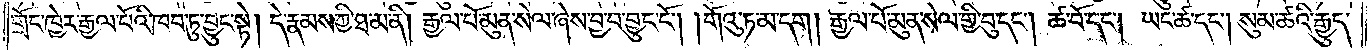གྲོང་ཁྱེར་རྒྱལ་པོའི་ཁབ་ཏུ་བྱུང་སྟེ། དེ་རྣམས་ཀྱི་ཐ་མ་ནི། རྒྱལ་པོ་མུན་སེལ་ཞེས་བྱ་བ་བྱུང་ངོ༌། །གོའུ་ཏ་མ་དག །རྒྱལ་པོ་མུན་སེལ་གྱི་བུ་དང༌། ཚ་བོ་དང༌། ཡང་ཚ་དང༌། སུམ་ཚའི་རྒྱུད་
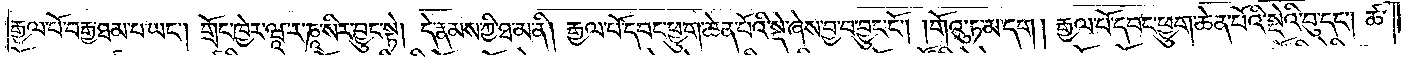རྒྱལ་པོ་བརྒྱ་ཐམ་པ་ཡང༌། གྲོང་ཁྱེར་ཝཱ་ར་ཎཱ་སིར་བྱུང་སྟེ། དེ་རྣམས་ཀྱི་ཐ་མ་ནི། རྒྱལ་པོ་དབང་ཕྱུག་ཆེན་པོའི་སྡེ་ཞེས་བྱ་བ་བྱུང་ངོ༌། །གོའུ་ཏ་མ་དག །རྒྱལ་པོ་དབང་ཕྱུག་ཆེན་པོའི་སྡེའི་བུ་དང༌། ཚ་
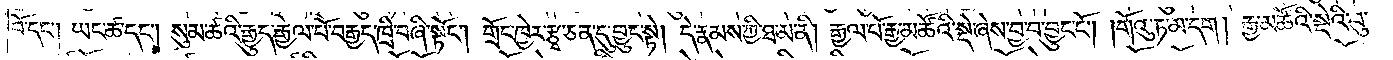བོ་དང༌། ཡང་ཚ་དང༌། སུམ་ཚའི་རྒྱུད་རྒྱལ་པོ་བརྒྱད་ཁྲི་བཞི་སྟོང༌། གྲོང་ཁྱེར་རྩྭ་ཅན་དུ་བྱུང་སྟེ། དེ་རྣམས་ཀྱི་ཐ་མ་ནི། རྒྱལ་པོ་རྒྱ་མཚོའི་སྡེ་ཞེས་བྱ་བ་བྱུང་ངོ༌། །གོའུ་ཏ་མ་དག །རྒྱ་མཚོའི་སྡེའི་བུ་
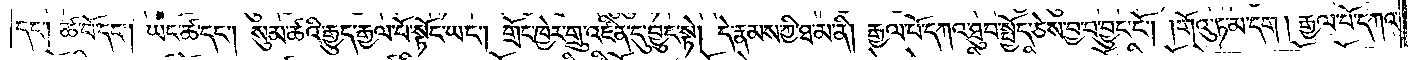དང༌། ཚ་བོ་དང༌། ཡང་ཚ་དང༌། སུམ་ཚའི་རྒྱུད་རྒྱལ་པོ་སྟོང་ཡང༌། གྲོང་ཁྱེར་གྲུ་འཛིན་དུ་བྱུང་སྟེ། དེ་རྣམས་ཀྱི་ཐ་མ་ནི། རྒྱལ་པོ་དཀའ་ཐུབ་སྤྱོད་ཅེས་བྱ་བ་བྱུང་ངོ༌། །གོའུ་ཏ་མ་དག །རྒྱལ་པོ་དཀའ་
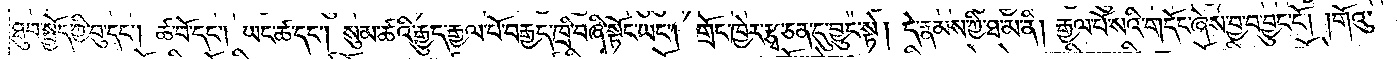ཐུབ་སྤྱོད་ཀྱི་བུ་དང༌། ཚ་བོ་དང༌། ཡང་ཚ་དང༌། སུམ་ཚའི་རྒྱུད་རྒྱལ་པོ་བརྒྱད་ཁྲི་བཞི་སྟོང་ཡང༌། གྲོང་ཁྱེར་རྩྭ་ཅན་དུ་བྱུང་སྟེ། དེ་རྣམས་ཀྱི་ཐ་མ་ནི། རྒྱལ་པོ་སའི་གདོང་ཞེས་བྱ་བ་བྱུང་ངོ༌། །གོའུ་
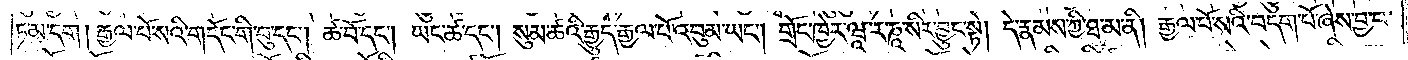ཏ་མ་དག །རྒྱལ་པོ་སའི་གདོང་གི་བུ་དང༌། ཚ་བོ་དང༌། ཡང་ཚ་དང༌། སུམ་ཚའི་རྒྱུད་རྒྱལ་པོ་འབུམ་ཡང༌། གྲོང་ཁྱེར་ཝཱ་ར་ཎཱ་སིར་བྱུང་སྟེ། དེ་རྣམས་ཀྱི་ཐ་མ་ནི། རྒྱལ་པོས་སའི་བདག་པོ་ཞེས་བྱ་བ་
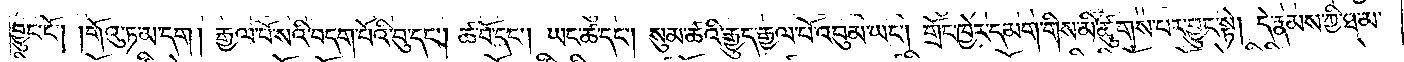བྱུང་ངོ༌། །གོའུ་ཏ་མ་དག །རྒྱལ་པོ་སའི་བདག་པོའི་བུ་དང༌། ཚ་བོ་དང༌། ཡང་ཚ་དང༌། སུམ་ཚའི་རྒྱུད་རྒྱལ་པོ་འབུམ་ཡང༌། གྲོང་ཁྱེར་དམག་གིས་མི་ཚུགས་པར་བྱུང་སྟེ། དེ་རྣམས་ཀྱི་ཐ་མ་
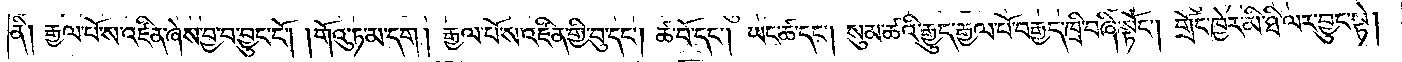ནི། རྒྱལ་པོ་ས་འཛིན་ཞེས་བྱ་བ་བྱུང་ངོ༌། །གོའུ་ཏ་མ་དག །རྒྱལ་པོ་ས་འཛིན་གྱི་བུ་དང༌། ཚ་བོ་དང༌། ཡང་ཚ་དང༌། སུམ་ཚའི་རྒྱུད་རྒྱལ་པོ་བརྒྱད་ཁྲི་བཞི་སྟོང༌། གྲོང་ཁྱེར་མི་ཐི་ལར་བྱུང་སྟེ།
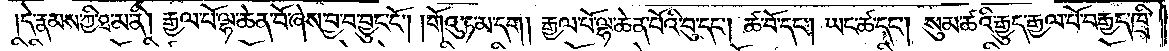དེ་རྣམས་ཀྱི་ཐ་མ་ནི། རྒྱལ་པོ་ལྷ་ཆེན་པོ་ཞེས་བྱ་བ་བྱུང་ངོ༌། །གོའུ་ཏ་མ་དག །རྒྱལ་པོ་ལྷ་ཆེན་པོའི་བུ་དང་།ཚ་བོ་དང༌། ཡང་ཚ་དང༌། སུམ་ཚའི་རྒྱུད་རྒྱལ་པོ་བརྒྱད་ཁྲི་
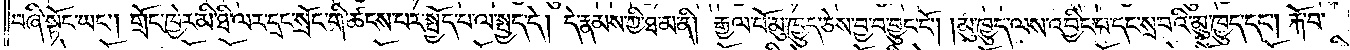བཞི་སྟོང་ཡང༌། གྲོང་ཁྱེར་མི་ཐི་ལར་དྲང་སྲོང་གི་ཚངས་པར་སྤྱོད་པ་ལ་སྤྱད་དེ། དེ་རྣམས་ཀྱི་ཐ་མ་ནི། རྒྱལ་པོ་མུ་ཁྱུད་ཅེས་བྱ་བ་བྱུང་ངོ༌། །མུ་ཁྱུད་ལས་འབྱིང་བ་དང་སྲ་བའི་མུ་ཁྱུད་དང༌། རྐོ་བ་
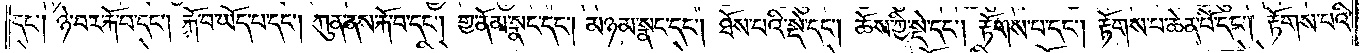དང༌། ཉེ་བར་རྐོ་བ་དང༌། རྐོ་བ་ཡོད་པ་དང༌། ཀུན་ནས་རྐོ་བ་དང༌། གྱ་ནོམ་སྣང་དང༌། མཉམ་སྣང་དང༌། ཐོས་པའི་སྡེ་དང་།ཆོས་ཀྱི་སྡེ་དང༌། རྟོགས་པ་དང༌། རྟོགས་པ་ཆེན་པོ་དང༌། རྟོགས་པའི་
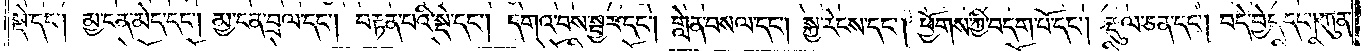སྡེ་དང༌། མྱ་ངན་མེད་དང༌། མྱ་ངན་བྲལ་དང༌། བརྟན་པའི་སྡེ་དང༌། དགའ་བས་སྦྱར་དང༌། གླེན་བསལ་དང༌། སྐྱ་རེངས་དང་།ཕྱོགས་ཀྱི་བདག་པོ་དང༌། རྡུལ་ཅན་དང༌། བདེ་བྱེད་དང༌། ཀུན་
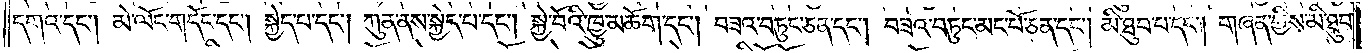དགའ་དང༌། མེ་ལོང་གདོང་དང༌། སྐྱེ་པ་དང༌། ཀུན་ནས་སྐྱེད་པ་དང༌། སྐྱེ་བོའི་ཁྱུ་མཆོག་དང༌། བཟའ་བཏུང་ཅན་དང༌། བཟའ་བཏུང་མང་པོ་ཅན་དང༌། མི་ཐུབ་པ་དང༌། གཞན་གྱིས་མི་ཐུབ་
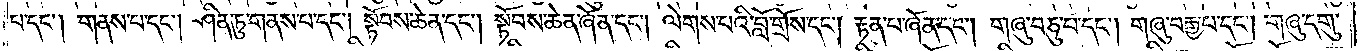པ་དང༌། གནས་པ་དང༌། ཤིན་ཏུ་གནས་པ་དང༌། སྟོབས་ཆེན་དང་།སྟོབས་ཆེན་ཞོན་དང༌། ལེགས་པའི་བློ་གྲོས་དང༌། རྟན་པ་ཞོན་དང༌། གཞུ་བཅུ་པ་དང༌། གཞུ་བརྒྱ་པ་དང༌། གཞུ་དགུ་
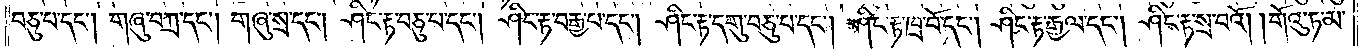བཅུ་པ་དང༌། གཞུ་བཀྲ་དང༌། གཞུ་སྲ་དང༌། ཤིང་རྟ་བཅུ་པ་དང༌། ཤིང་རྟ་བརྒྱ་པ་དང༌། ཤིང་རྟ་དགུ་བཅུ་པ་དང༌། ཤིང་རྟ་ཁྲོ་བོ་དང༌། ཤིང་རྟ་རྒྱལ་དང༌། ཤིང་རྟ་སྲ་བའོ། །གོའུ་ཏ་མ་
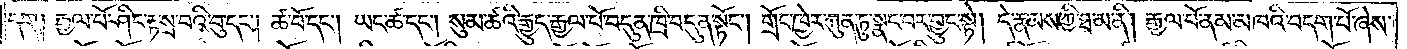དག །རྒྱལ་པོ་ཤིང་རྟ་སྲ་བའི་བུ་དང༌། ཚ་བོ་དང༌། ཡང་ཚ་དང༌། སུམ་ཚའི་རྒྱུད་རྒྱལ་པོ་བདུན་ཁྲི་བདུན་སྟོང༌། གྲོང་ཁྱེར་ཀུན་ཏུ་སྣང་བར་བྱུང་སྟེ། དེ་རྣམས་ཀྱི་ཐ་མ་ནི། རྒྱལ་པོ་ནམ་མཁའི་བདག་པོ་ཞེས་
